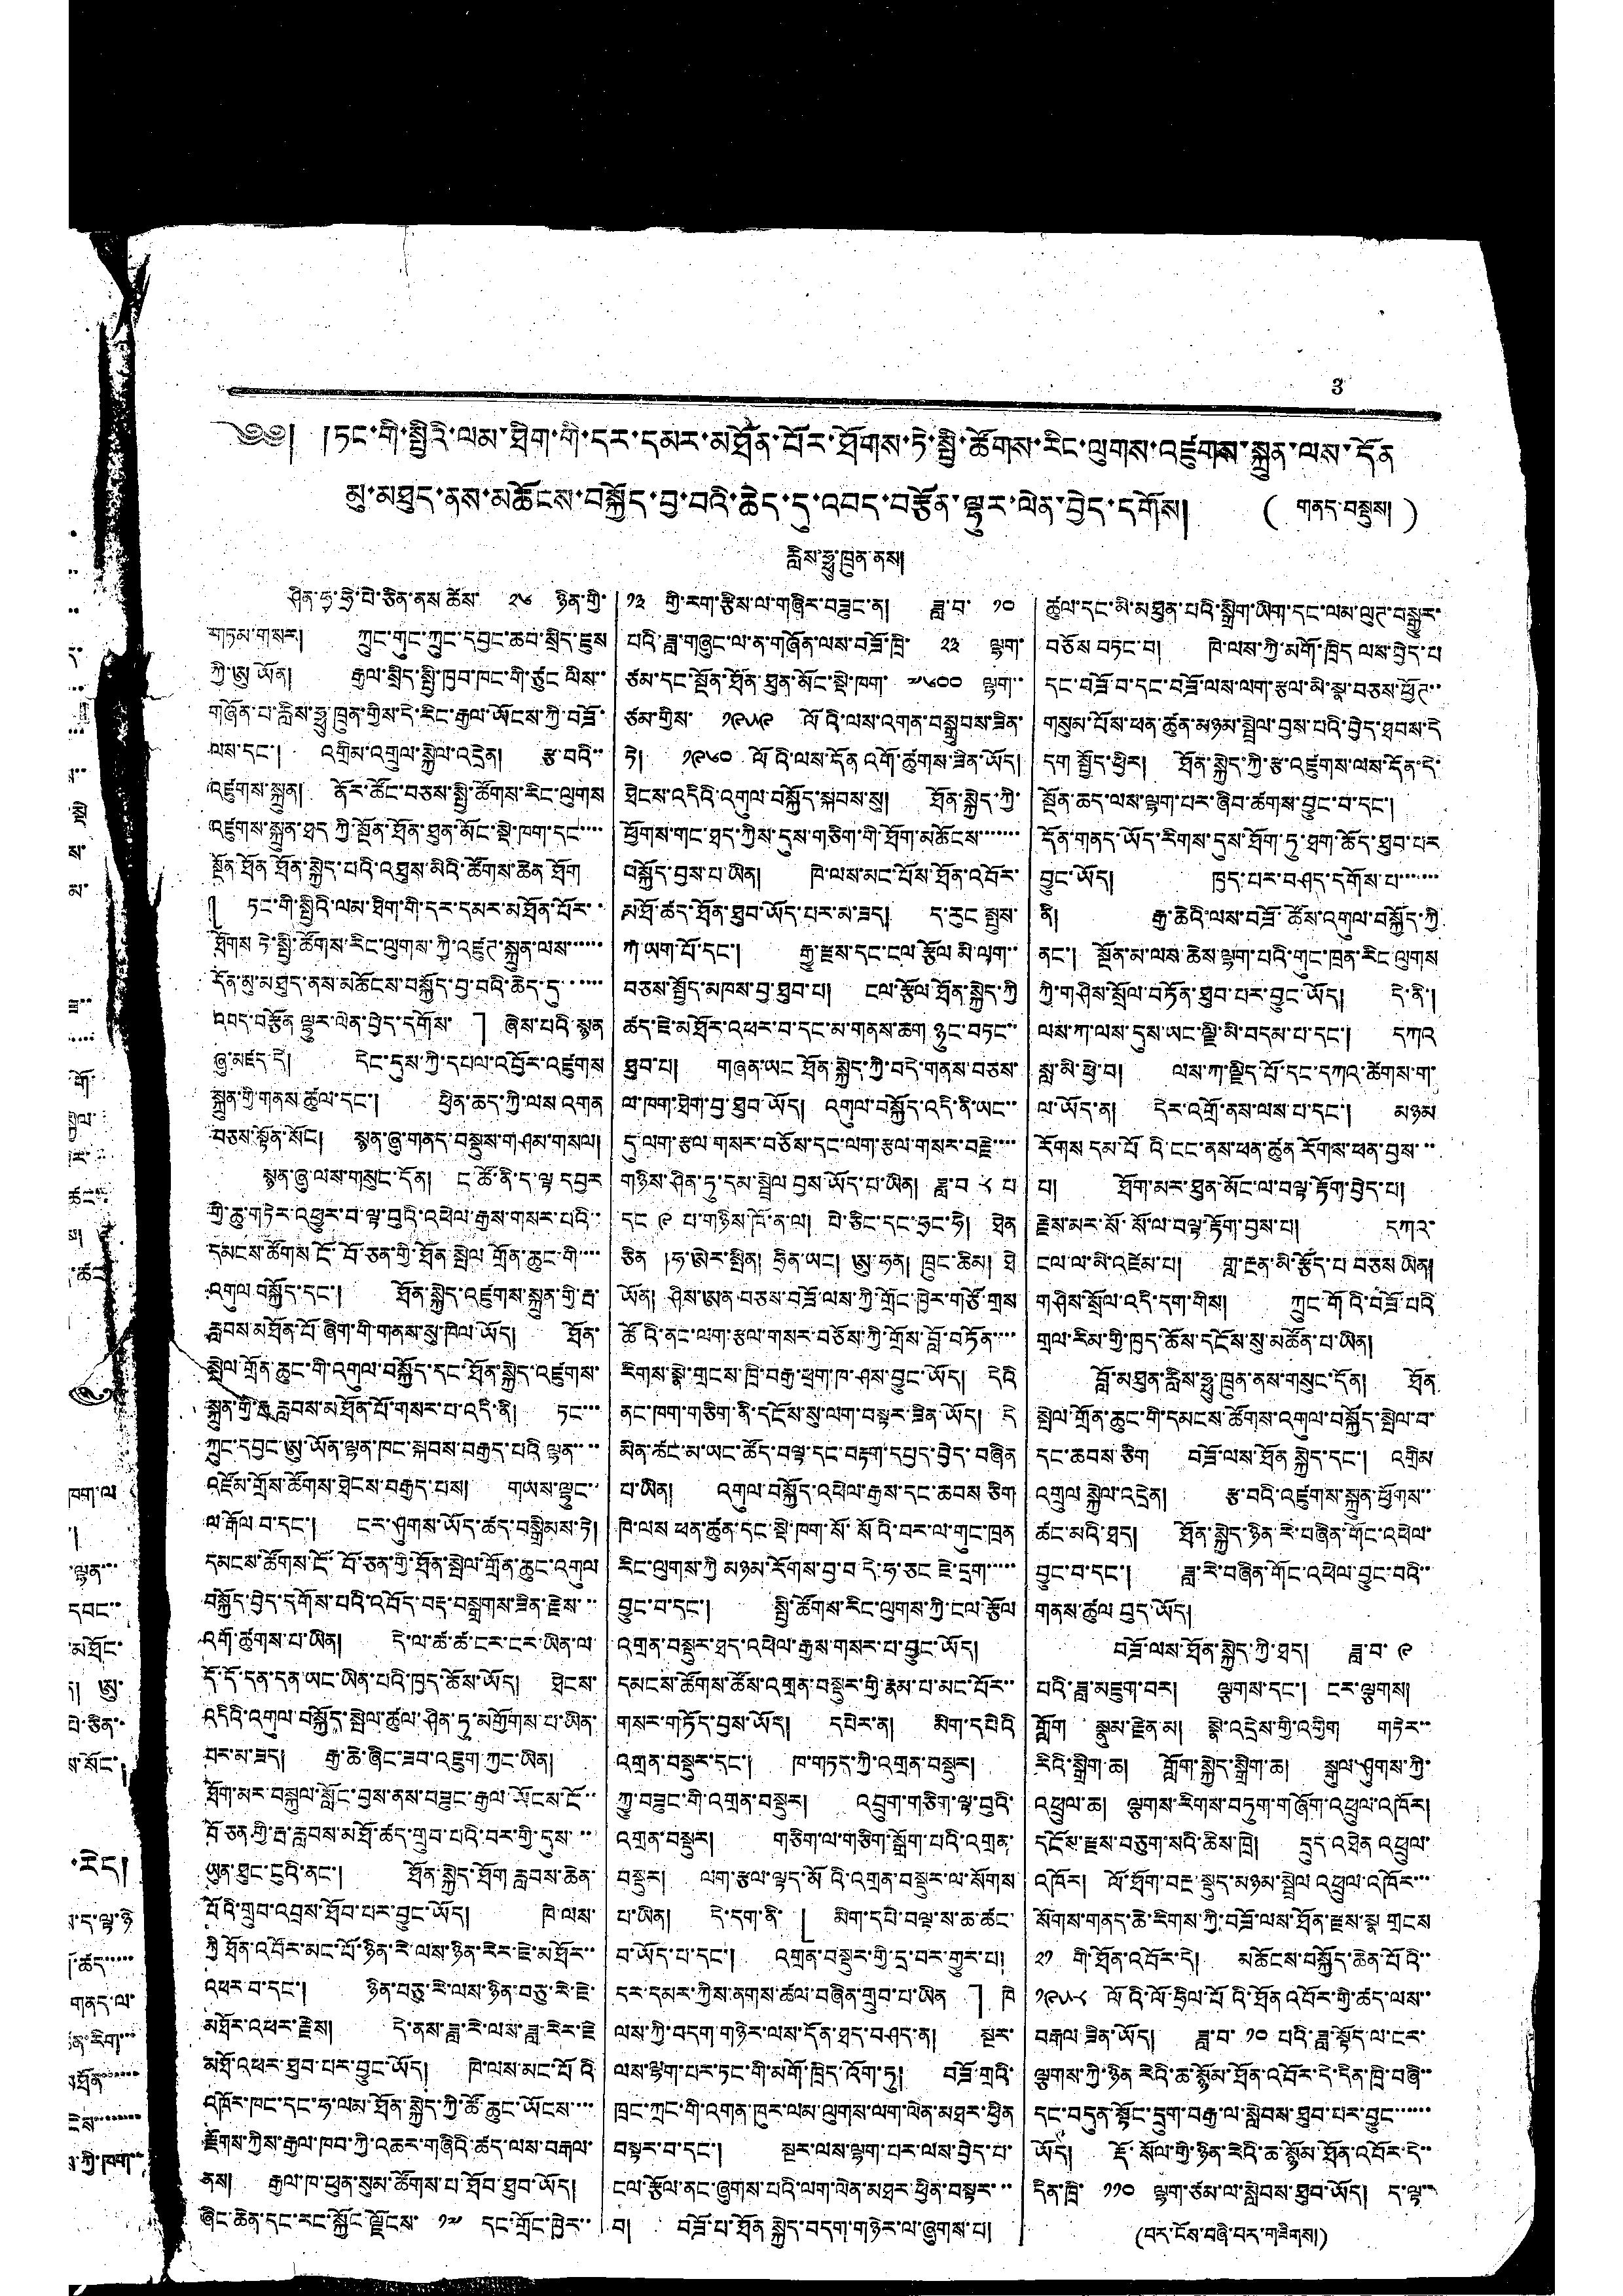3
༄༅། །ཏང་གི་སྤྱིའི་ལམ་ཐིག་གི་དར་དམར་མཐོན་པོར་ཐོགས་ཏེ་སྤྱི་ཚོགས་རིང་ལུགས་འཛུགས་སྐྲུན་ལས་དོན
མུ་མཐུད་ནས་མཆོངས་བསྐྱོད་བྱ་བའི་ཆེད་དུ་འབད་བརྩོན་ལྷུར་ལེན་བྱེད་དགོས། ( གནད་བསྡུས། )
རླིས་ཧྥུ་ཁྲུན་ནས།
ཤིན་ཧྭ་ཧྲེ་པེ་ཅིན་ནས ཚེས་ ༢༦ ཉིན་གྱི་
གཏམ་གསར། ཀྲུང་གུང་ཀྲུང་དབྱང་ཆབ་སྲིད་ཇུས
ཀྱི་ཨུ ཡོན། རྒྱལ་སྲིད་སྤྱི་ཁྱབ་ཁང་གི་ཙུང ལིས་་
གཞོན་པ་རླིས་ཧྥུ་ཁྲུན་གྱིས་དེ་རིང་རྒྱལ་ཡོངས་ཀྱི་བཟོ་
ལས་དང་། འགྲིམ་འགྲུལ་སྐྱེལ་འདྲེན། རྩ་བའི་་
འཛུགས་སྐྲུན། ནོར་ཚོང་བཅས་སྤྱི་ཚོགས་རིང་ལུགས
འཛུགས་སྐྲུན་ཐད ཀྱི་སྔོན་ཐོན་ཐུན་མོང་སྡེ་ཁག་དང་་་་
སྔོན ཐོན ཐོན་སྐྱེད་པའི་འཐུས་མིའི་ཚོགས་ཆེན ཐོག
「 ཏང་གི་སྤྱིའི་ལམ་ཐིག་གི་དར་དམར་མཐོན་པོར་་
ཐོགས ཏེ་སྤྱི་ཚོགས་རིང་ལུགས་ཀྱི་འཛུཊ་སྐྲུན་ལས་་་་་་
དོན་མུ་མཐུན་ནས་མཆོངས་བསྐྱོད་བྱ་བའི་ཆེད་དུ་་་་་་
འབད་བརྩོན ལྷུར་ལེན་བྱེད་དགོས་ 」 ཞེས་པའི སྙན
ཞུ་མཛད་དེ། དེང་དུས་ཀྱི་དཔལ་འབྱོར་འཛུགས
སྐྲུན་གྱི་གནས ཚུལ་དང་། ཕྱིན་ཆད་ཀྱི་ལས འགན
བཅས་སྟོན་སོང་། སྙན་ཞུ་གནད་བསྡུས་གཤམ་གསལ།
སྙན་ཞུ ལས་གསུང་དོན། ང ཚོ་ནི་ད་ལྟ དབྱར
གྱི་ཆུ་གཏེར་འཕྱུར་བ་ལྟ་བུའི་འཕེལ་རྒྱས་གསར་པའི་་
དམངས་ཚོགས ངོ་བོ་ཅན་གྱི་ཐོན སྤེལ གྲོན་ཆུང་གི་་་་
འགུལ བསྐྱོད་དང་། ཐོན་སྐྱེད་འཛུགས་སྐྲུན་གྱི་རྦ་
རླབས་མཐོན་པོ་ཞིག་གི་གནས་སུ་ཁེལ་ཡོད། ཐོན་
སྤེལ་གྲོན་ཆུང་གི་འགུལ་བསྐྱོད་དང་ཐོན་སྐྱེད་འཛུགས་
སྐྲུན་གྱི་རྦ རླབས་མཐོན་པོ་གསར་པ་འདི་ནི། ཏང་་་
ཀྲུང་དབྱང་ཨུ་ཡོན་ལྷན་ཁང་སྐབས་བརྒྱད་པའི་ལྷན་་་་
འཛོམ་གྲོས་ཚོགས་ཐེངས་བརྒྱད་པས། གཡས་ལྷུང་་
ལ་རྒོལ བ་དང་། ངར་ཤུགས་ཡོད་ཚད་བསྒྲིམས་ཏེ།
དམངས་ཚོགས་ངོ་བོ་ཅན་གྱི་ཐོན་སྤེལ་གྲོན་ཆུང་འགུལ
བསྐྱོད་བྱེད་དགོས་པའི་འབོད་བརྡ་བསྒྲགས་ཟིན་རྗེས་་་
འགོ་ཚུགས་པ་ཡིན། དེ་ལ་ཚ་ཚ་ངར་ངར་ཡིན་ལ་
དོ་དོ་དན་དན་ཡང་ཡིན་པའི་ཁྱད་ཆོས་ཡོད། ཐེངས་
འདིའི་འགུལ་བསྐྱོད་སྤེལ་ཚུལ་ཤིན་ཏུ་མགྱོགས་པ་ཡིན་
པར་མ་ཟད། རྒྱ་ཆེ་ཞིང་ཟབ་འཇུག ཀྱང་ཡིན།
ཐོག་མར་བསྐུལ་སློང་བྱས་ནས་བཟུང་རྒྱལ་ཡོངས་ངོ་་
བོ ཅན གྱི་རྦ་རབས་མཐོ་ཚད་གྲུབ་པའི་བར་གྱི་དུས་་་
ཡུན་ཐུང་ངུའི་ནང་། ཐོན་སྐྱེད་ཐོག རླབས་ཆེན་
པོའི་གྲུབ་འབྲས་ཐོབ་པར་བྱུང་ཡོད། ཁེ་ལས་
ཀྱི ཐོན་འབོར་མང་པོ་ཉིན་རེ་ལས་ཉིན་རེར་ཇེ་མཐོར་་
འཕར བ་དང་། ཉིན་བཅུ་རེ་ལས་ཉིན་བཅུ་རེ་ཇེ་
མཐོར་འཕར་རྗེས། དེ་ནས་ཟླ་རེ་ལས་ཟླ་རེར་ཇེ
མཐོ་འཕར་ཐུབ་པར་བྱུང་ཡོད། ཁེ་ལས་མང་པོའི
འཁོར་ཁང་དང་ཧ་ལམ་ཐོན་སྐྱེད་ཀྱི་ཚོ་ཆུང་ཡོངས་་་་
རྫོགས་ཀྱིས་རྒྱལ་ཁབ་ཀྱི་འཆར་གཞིའི་ཚད་ལས་བརྒལ་
ནས། རྒྱལ་ཁ་ཕུན་སུམ་ཚོགས་པ་ཐོབ་ཐུབ་ཡོད།
ཞིང་ཆེན་དང་རང་སྐྱོང་ལྗོངས་ ༡༧ དང་གྲོང་ཁྱེར་་
༡༣ གྱི་རག་རྩིས་ལ་གཞིར་བཟུང་ན། ཟླ་བ་ ༡༠
པའི་ཟླ་གཞུང་ལ་ན་གཞོན་ལས་བཟོ་ཁྲི་ ༢༣ ལྷག་
ཙམ་དང་སྔོན་ཐོན་ཐུན་མོང་སྡེ་ཁག་ ༧༦༠༠ ལྷག་་
ཙམ་གྱིས་ ༡༩༥༩ ལོའི་ལས་འགན་བསྒྲུབས་ཟིན་
ཏེ། ༡༩༦༠ ལོའི་ལས་དོན འགོ་ཚུགས་ཟིན་ཡོད།
ཐེངས་འདིའི་འགུལ་བསྐྱོད་སྐབས་སུ། ཐོན་སྐྱེད་ཀྱི་
ཕྱོགས་གང་ཐད་ཀྱིས་དུས་གཅིག་གི་ཐོག་མཆོངས་་་་་་་
བསྐྱོད་བྱས་པ་ཡིན། ཁེ་ལས་མང་པོས་ཐོན་འབོར་
མཐོ་ཚད་ཐོན་ཐུབ་ཡོད་པར་མ་ཟད། ད་རུང སྤུས་
ཀ་ཡག་པོ་དང་། རྒྱུ་རྫས་དང་ངལ རྩོལ མི་ལག་་
བཅས་སྤྱོད་མཁས་བྱ་ཐུབ་པ། ངལ་རྩོལ་ཐོན་སྐྱེད་ཀྱི
ཚད་ཇེ་མཐོར་འཕར་བ་དང་མ་གནས་ཆག ཉུང་བཏང་་
ཐུབ་པ། གཞན་ཡང ཐོན་སྐྱེད་ཀྱི་བདེ་གནས་བཅས་
ལ་ཁག་ཐེག་བྱ་ཐུབ་ཡོད། འགུལ་བསྐྱོད་འདི་ནི་ཡང་་
དུ་ལག་རྩལ གསར་བཅོས་དང་ལག་རྩལ་གསར་བརྗེ་་་་
གཉིས་ཤིན་ཏུ་དམ་སྦྲེལ བྱས་ཡོད་པ་ཡིན། ཟླ་བ ༨ པ
དང ༩ པ་གཉིས་ཁོ་ན་ལ། པེ་ཅིང་དང་ཧྲང་ཧེ། ཐེན
ཅིན །ཧ་ཨེར་སྤིན། ཧྲིན་ཡང་། ཨུ་ཧན། ཁྲུང་ཆིམ། ཐེ
ཡོན། ཤིས་ཨན་བཅས་བཟོ་ལས་ཀྱི་གྲོང་ཁྱེར་གཙོ་གྲས
ཚོའི་ནང་ལག་རྩལ་གསར་བཅོས་ཀྱི་གྲོས་བློ་བཏོན་་་་
རིགས་སྣེ་གྲངས་ཁྲི་བརྒྱ་ཕྲག་ཁ་ཤས་བྱུང་ཡོད། དེའི
ནང་ཁག་གཅིག་ནི་དངོས་སུ་ལག་བསྟར་ཟིན་ཡོད། དེ
མིན་ཚང་མ་ཡང་ཚོད་བལྟ་དང་བརྟག་དཔྱད་བྱེད་བཞིན
པ་ཡིན། འགུལ་བསྐྱོད་འཕེལ་རྒྱས་དང་ཆབས ཅིག
ཁེ་ལས ཕན་ཚུན་དང་སྡེ་ཁག་སོ་སོའི་བར་ལ་གུང་ཁྲན
རིང་ལུགས་ཀྱི མཉམ་རོགས་བྱ་བ དེ་ཧ་ཅང ཇེ་དྲག་་་་་
བྱུང་བ་དང་། སྤྱི་ཚོགས་རིང་ལུགས་ཀྱི་ངལ་རྩོལ
འགྲན་བསྡུར་ཐད་འཕེལ་རྒྱས་གསར་པ་བྱུང་ཡོད།
དམངས་ཚོགས་ཚོས་འགྲན་བསྡུར་གྱི་རྣམ་པ་མང་པོར་་
གསར་གཏོད་བྱས་ཡོད། དཔེར་ན། མིག་དཔེའི
འགྲན་བསྡུར་དང་། ཁ་གཏད་ཀྱི་འགྲན་བསྡུར།
ཀྱུ་བཟུང་གི་འགྲན་བསྡུར། འབྲུག་གཅིག་ལྟ་བུའི་
འགྲན་བསྡུར། གཅིག་ལ་གཅིག་སྒྲོག་པའི་འགྲན་
བསྡུར། ལག་རྩལ་ལྟད་མོའི་འགྲན་བསྡུར་ལ་སོགས
པ་ཡིན། དེ་དག་ནི་ 「 མིག་དཔེ་བལྟ་ས་ཆ་ཚང་
བ་ཡོད་པ་དང་། འགྲན་བསྡུར་གྱི་དྲ་བར་གྱུར་པ།
དར་དམར་ཀྱིས་ནགས་ཚལ་བཞིན་གྲུབ་པ་ཡིན 」 ཁེ
ལས་ཀྱི་བདག་གཉེར་ལས་དོན་ཐད་བཤད་ན། སྔར་
ལས་ལྷག་པར་ཏང་གི་མགོ་ཁྲིད་འོག་ཏུ། བཟོ་གྲའི་
ཁྲང་ཀྲང་གི་འགན་ཁུར་ལམ་ལུགས་ལག་ལེན་མཐར་ཕྱིན
བསྟར་བ་དང་། སྔར་ལས་ལྷག་པར་ལས་བྱེད་པ་
ངལ་རྩོལ་ནང་ཞུགས་པའི་ལག་ལེན་མཐར་ཕྱིན་བསྟར་་་
བ། བཟོ་པ་ཐོན སྐྱོད་བདག་གཉེར་ལ་ཞུགས་པ།
ཚུལ་དང་མི་མཐུན་པའི་སྒྲིག་ ཡིག་དང་ལམ་ལུཊ་བསྒྱུར་
བཅོས བཏང་བ། ཁེ་ལས་ཀྱི་མགོ་ཁྲིད ལས་བྱེད་པ
དང་བཟོ་བ་དང་བཟོ་ལས་ལག་རྩལ་མི་སྣ་བཅས་ཕྱོཊ་་
གསུམ་པོས་ཕན་ཚུན་མཉམ་སྦྲེལ་བྱས་པའི་བྱེད་ཐབས་དེ
དག སྤྱོད་ཕྱིར། ཐོན་སྐྱེད་ཀྱི་རྩ་འཛུགས་ལས་དོན་དེ་
སྔོན་ཆད་ལས་ལྷག་པར་ཞིབ་ཚགས་བྱུང་བ་དང་།
དོན་གནད་ཡོད་རིགས་དུས་ཐོག་ཏུ་ཐག་ཆོད་ཐུབ་པར
བྱུང་ཡོད། ཁྱད་པར་བཤད་དགོས་པ་་་་་་
ནི། རྒྱ་ཆེའི་ལས་བཟོ་ཚོས་འགུལ་བསྐྱོད་ཀྱི
ནང་། སྔོན་མ་ལས་ཆེས་ལྷག་པའི་གུང་ཁྲན་རིང་ལུགས
ཀྱི་གཤིས་སྲོལ་བཏོན་ཐུབ་པར་བྱུང་ཡོད། དེ་ནི་།
ལས་ཀ་ལས་དུས་ཡང་ལྗི་མི་བདམ་པ་དང་། དཀའ
སླ་མི་ཕྱེ་བ། ལས་ཀ་ལྗིད་པོ་དང་དཀའ་ཚེགས་ག་
ལ་ཡོད་ན། དེར་འགྲོ་ནས་ལས་པ་དང་། མཉམ
རོགས དམ་པོའི་ངང་ནས་ཕན་ཚུན རོགས་ཕན་བྱས་་་
པ། ཐོག་མར་ཐུན་མོང་ལ་བལྟ་རྟོག་བྱེད་པ།
རྗེས་མར་སོ་སོ་ལ་བལྟ་རྟོག་བྱས་པ། དཀའ་
ངལ་ལ་མི་འཛེམ་པ། གླ་རྔན་མི་རྩོད་པ བཅས ཡིན།
གཤིས་སྲོལ་འདི་དག་གིས། ཀྲུང་གོའི་བཟོ་པའི
གྲལ་རིམ་གྱི་ཁྱད་ཆོས་དངོས་སུ་མཚོན་པ་ཡིན།
བློ་མཐུན་རླིས་ཧྥུ་ཁྲུན་ནས་གསུང་དོན། ཐོན
སྤེལ་གྲོན་ཆུང་གི་དམངས་ཚོགས་འགུལ་བསྐྱོད་སྤེལ་བ་
དང་ཆབས་ཅིག བཟོ་ལས་ཐོན སྐྱེད་དང་། འགྲིམ
འགྲུལ སྐྱེལ་འདྲེན། རྩ་བའི་འཛུགས་སྐྲུན་ཕྱོགས་་
ཚང་མའི་ཐད། ཐོན་སྐྱེད་ཉིན་རེ་བཞིན་གོང་འཕེལ་
བྱུང་བ་དང་། ཟླ་རེ་བཞིན་གོང་འཕེལ་བྱུང་བའི་་
གནས་ཚུལ བུད་ཡོད།
བཟོ་ལས་ཐོན་སྐྱེད་ཀྱི་ཐད། ཟླ་བ་ ༩
པའི་ཟླ་མཇུག་བར། ལྕགས་དང་། ངར་ལྕགས།
གློག སྣུམ་རྗེན་མ། སྣེ་འདྲེས་གྱི་འགྱིག གཏེར་་
རིའི་སྒྲིག་ཆ། གློག་སྐྱེད་སྒྲིག་ཆ། སྒུལ་ཤུགས་ཀྱི་
འཕྲུལ་ཆ། ལྕགས་རིགས་བཏུག་གཞོག་འཕྲུལ་འཁོར།
དངོས་རྫས་བཅུག་སའི་ཆིས་ཁྲེ། དྲུད འཐེན འཕྲུལ་
འཁོར། ལོ་ཐོག་བརྔ་སྡུད་མཉམ་སྦྲེལ འཕྲུལ་འཁོར་་་
སོགས་གནད་ཆེ་རིགས་ཀྱི་བཟོ་ལས་ཐོན་རྫས་སྣ གྲངས
༢༡ གི་ཐོན་འབོར་དེ། མཆོངས་བསྐྱོད་ཆེ་པོའི་་
༡༩༥༨ ལོའི་ལོ་ཧྲིལ་པོའི་ཐོན འབོར་གྱི་ཚད་ལས་་
བརྒལ་ཟིན་ཡོད། ཟླ་བ་ ༡༠ པའི་ཟླ་སྟོད་ལ་ངར་
ལྕགས་ཀྱི་ཉིན རེའི་ཆ་སྙོམ་ཐོན་འབོར་དེ་དིན་ཁྲི་བཞི་་
དང་བདུན་སྟོང་དྲུག་བརྒྱ་ལ་སླེབས་ཐུབ་པར་བྱུང་་་་་་
ཡོད། རྡོ་སོལ་གྱི་ཉིན་རེའི་ཆ་སྙོམ་ཐོན་འབོར་དེ་་
དིན་ཁྲི་ ༡༡༠ ལྷག་ཙམ་ལ་སླེབས་ཐུབ་ཡོད། ད་ལྟ་་
(པར་ངོས་བཞི་པར་གཟིགས།)
